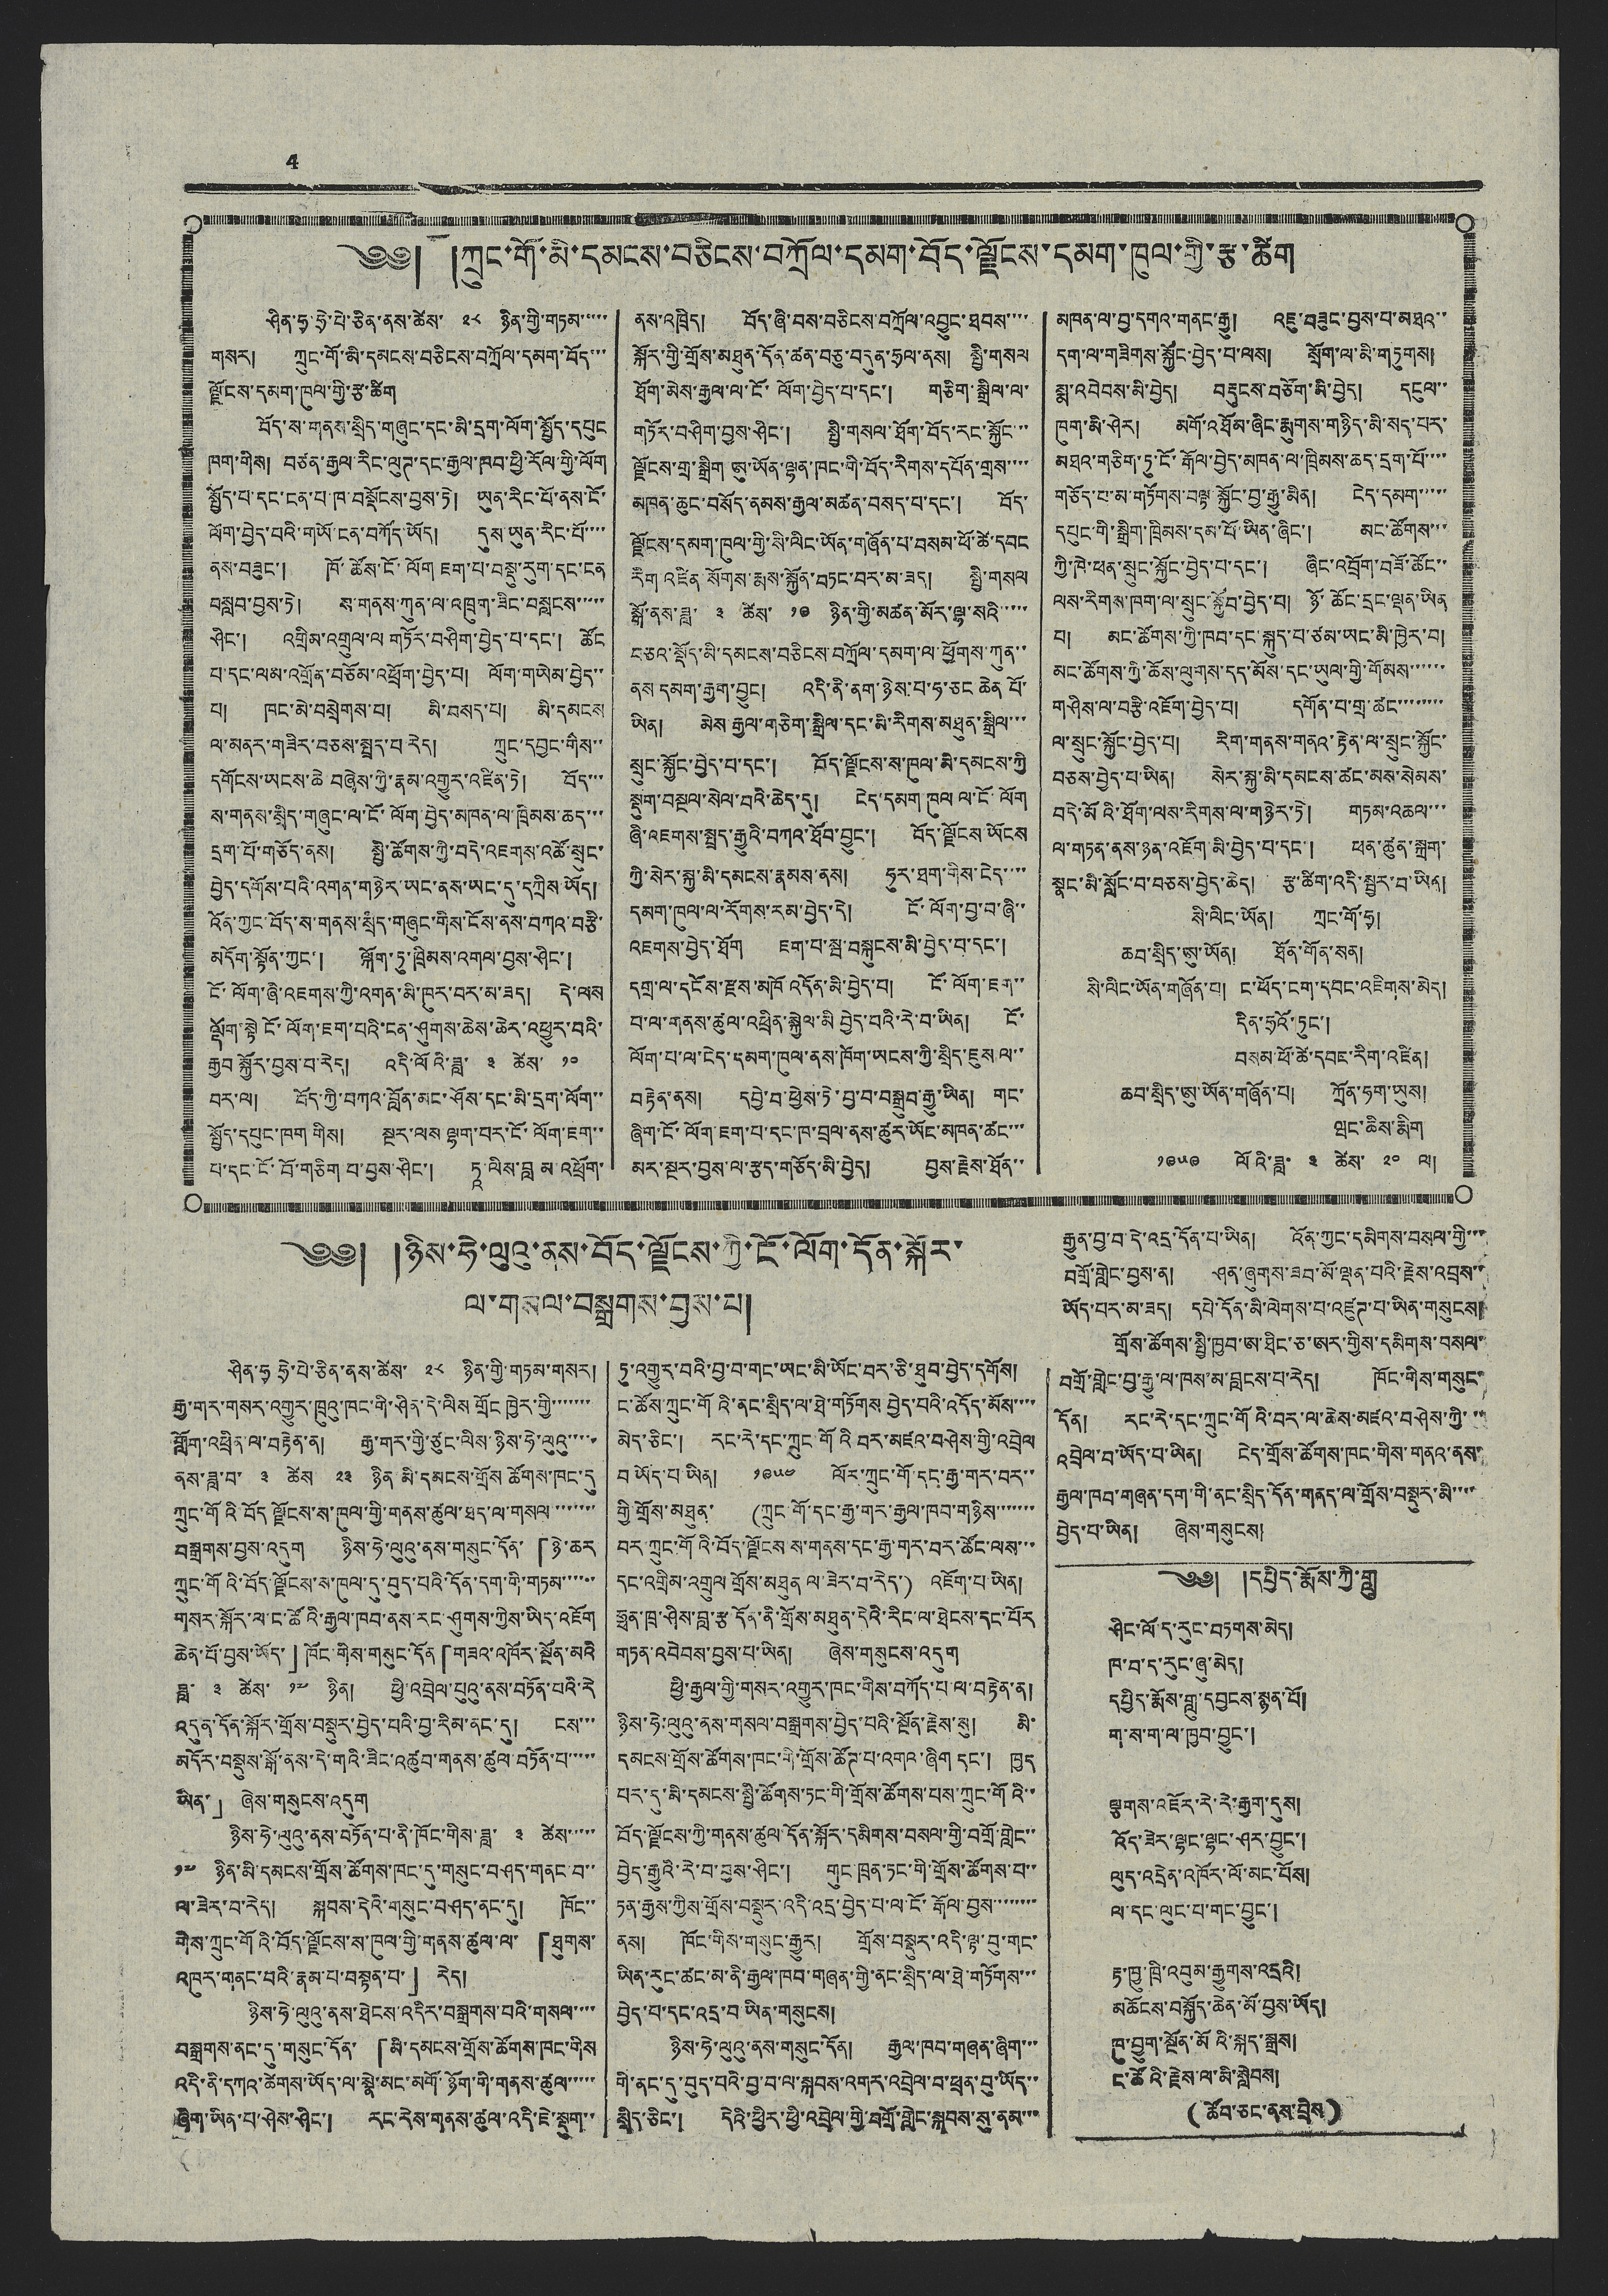4
༄༅། །ཀྲུང་གོ་མི་དམངས་བཅིངས་བཀྲོལ་དམག་བོད་ལྗོངས་དམག་ཁུལ་གྱི་རྩ་ཚིག
ཤིན་ཧྭ་ཧྲེ་པེ་ཅིན་ནས་ཚེས་ ༢༨ ཉིན་གྱི་གཏམ་་་་་
གསར། ཀྲུང་གོ་མི་དམངས་བཅིངས་བཀྲོལ་དམག་བོད་་་
ལྗོངས་དམག་ཁུལ་གྱི་རྩ་ཚིག
བོད་ས་གནས་སྲིད་གཞུང་དང་མི་དྲག་ལོག་སྤྱོད་དཔུང
ཁག་གིས། བཙན་རྒྱལ་རིང་ལུཊ་དང་རྒྱལ་ཁབ་ཕྱི་རོལ་གྱི་ལོག
སྤྱོད་པ་དང་ངན་པ་ཁ་བསྡོངས་བྱས་ཏེ། ཡུན་རིང་པོ་ནས་ངོ་
ལོག་བྱེད་པའི་གཡོ་ངན་བཀོད་ཡོད། དུས་ཡུན་རིང་པོ་་་་
ནས་བཟུང་། ཁོ་ཚོས་ངོ་ལོག ཇག་པ་བསྡུ་རུག་དང་ངན
བསླབ་བྱས་ཏེ། ས་གནས་ཀུན་ལ་འཁྲུག་ཟིང་བསླངས་་་་་
ཤིང་། འགྲིམ་འགྲུལ་ལ གཏོར་བཤིག་བྱེད་པ་དང་། ཚོང
པ་དང་ལམ་འགྲོན་བཅོམ་འཕྲོག་བྱེད་པ། ལོག་གཡེམ་བྱེད་་
པ། ཁང་མེ་བསྲེགས་པ། མི་བསད་པ། མི་དམངས
ལ་མནར་གཟིར་བཅས་སྤྲད་པ་རེད། ཀྲུང་དབྱང་གིས་་
དགོངས་ཡངས་ཆེ བཞེས་ཀྱི་རྣམ་འགྱུར་འཛིན་ཏེ། བོད་་་
ས་གནས་སྲིད་གཞུང་ལ་ངོ་ལོག་བྱེད་མཁན་ལ་ཁྲིམས་ཆད་་་
དྲག་པོ་གཅོད་ནས། སྤྱི་ཚོགས་ཀྱི་བདེ་འཇགས་འཚོ་སྲུང་
བྱེད་དགོས་པའི་འགན་གཉེར་ཡང་ནས་ཡང་དུ་དཀྲིས་ཡོད།
འོན་ཀྱང་བོད་ས་གནས་སྲིད་གཞུང་གིས་ངོས་ནས་བཀའ་བརྩི་
མདོག་སྟོན་ཀྱང་། ལྐོག་ཏུ་ཁྲིམས་འགལ་བྱས་ཤིང་།
ངོ་ལོག་ཞི་འཇགས་ཀྱི་འགན་མི་ཁུར་བར་མ་ཟད། དེ་ལས
ལྡོག་སྟེ ངོ་ལོག་ཇག་པའི་ངན་ཤུགས་ཆེས་ཆེར་འཕྱུར་བའི་
རྒྱབ སྐྱོར་བྱས་བ་རེད། འདི་ལོའི་ཟླ་ ༣ ཚེས་ ༡༠
བར་ལ། བོད་ཀྱི་བཀའ་བློན་མང་ཤོས་དང་མི་དྲག་ལོག་་
སྤྱོད་དཔུང་ཁག གིས། སྔར་ལས ལྷག་པར་ངོ་ལོག་ཇག་་
པ་དང་ངོ་བོ་གཅིག་པ་བྱས་ཤིང་། ཏཱ་ལིས་བླ མ འཕྲོག་
ནས་འཁྲིད། བོད་ཞི་བས་བཅིངས་བཀྲོལ་འབྱུང་ཐབས་་་་
སྐོར་གྱི་གྲོས་མཐུན་དོན་ཚན་བཅུ་བདུན་ཧྲལ་ནས། སྤྱི་གསལ
ཐོག་མེས་རྒྱལ་ལ་ངོ་ལོག་བྱེད་པ་དང་། གཅིག་སྒྲིལ་ལ་
གཏོར་བཤིག་བྱས་ཤིང་། སྤྱི་གསལ་ཐོག་བོད་རང་སྐྱོང་་་
ལྗོངས་གྲ་སྒྲིག ཨུ་ཡོན་ལྷན་ཁང་གི་བོད་རིགས་དཔོན་གྲས་་་་
མཁན་ཆུང་བསོད་ནམས་རྒྱལ་མཚན་བསད་པ་དང་། བོད་
ལྗོངས་དམག་ཁུལ་གྱི་སི་ལིང་ཡོན་གཞོན་པ་བསམ་ཕོ་ཚེ་དབང
རིག་འཛིན་སོགས་རྨས་སྐྱོན་བཏང་བར་མ་ཟད། སྤྱི་གསལ
སྒོ་ནས་ཟླ་ ༣ ཚེས་ ༡༩ ཉིན་གྱི་མཚན་མོར་ལྷ་སའི་་་་་
བཅའ་སྡོད་མི་དམངས་བཅིངས་བཀྲོལ་དམག་ལ་ཕྱོགས་ཀུན་་
ནས་དམག་རྒྱག་བྱུང། འདི་ནི་ནག་ཉེས་པ་ཧ་ཅང ཆེན པོ་
ཡིན། མེས་རྒྱལ་གཅིག་སྒྲིལ་དང་མི་རིགས་མཐུན་སྒྲིལ་་་
སྲུང་སྐྱོང་བྱེད་པ་དང་། བོད་ལྗོངས་ས་ཁུལ་མི་དམངས་ཀྱི
སྡུག་བསྔལ་སེལ་བའི་ཆེད་དུ། ངེད་དམག ཁུལ ལ་ངོ་ལོག
ཞི་འཇགས་སྤྲད་རྒྱུའི་བཀའ་ཐོབ་བྱུང་། བོད་ལྗོངས་ཡོངས
ཀྱི་སེར་སྐྱ་མི་དམངས་རྣམས་ནས། ཧུར་ཐག་གིས་ངེད་་་་
དམག་ཁུལ་ལ་རོགས་རམ་བྱེད་དེ། ངོ་ལོག་བྱ་བ་ཞི་་
འཇགས་བྱེད་ཐོག ཇག་པ་སྦ་བསྐུངས་མི་བྱེད་པ་དང་།
དགྲ་ལ་དངོས་རྫས་མཁོ འདོན་མི་བྱེད་བ། ངོ་ལོག་ཇག་་
བ་ལ་གནས་ཚུལ་འཕྲིན་སྐྱེལ་མི བྱེད་བའི་རེ་བ་ཡིན། ངོ་
ལོག་པ་ལ་ངེད་དམག་ཁུལ་ནས་ཁོག་ཡངས་ཀྱི་སྲིད་ཇུས ལ་་
བརྟེན་ནས། དབྱེ་བ་ཕྱེས་ཏེ་བྱ་བ་བསྒྲུབ་རྒྱུ་ཡིན། གང་
ཞིག་ངོ་ལོག་ཇག་པ་དང་ཁག་བྲལ་ནས་ཚུར་ཡོང་མཁན་ཚང་་་
མར་སྔར་བྱས་ལ་རྩད་གཅོད་མི་བྱེད། བྱས་རྗེས་ཐོན་་
མཁན་ལ་བྱ་དགའ་གནང་རྒྱུ། འཇུ་བཟུང་བྱས་པ་མཐའ་་
དག་ལ་གཟིགས་སྐྱོང་བྱེད་པ་ལས། སྲོག་ལ་མི་གཏུགས།
སྨ་འབེབས་མི་བྱེད། བརྡུངས་བཙོག་མི་བྱེད། དངུལ་་
ཁུག་མི་ཤེར། མགོ་འཐོམ་ཞིང་རྨུགས་གཉིད་མི་སད་པར་
མཐའ་གཅིག་ཏུ་ངོ་རྒོལ་བྱེད་མཁན་ལ་ཁྲིམས་ཆད་དྲག་པོ་་་་
གཅོད་པ་མ་གཏོགས་བལྟ་སྐྱོང་བྱ་རྒྱུ་མིན། ངེད་དམག་་་་་
དཔུང་གི་སྒྲིག་གྲིམས་དམ་པོ་ཡིན་ཞིང་། མང་ཚོགས་་་
ཀྱི་ཁེ་ཕན་སྲུང་སྐྱོང་བྱེད་པ་དང་། ཞིང་འབྲོག་བཟོ་ཚོང་་
ལས་རིགས་ཁག་ལ་སྲུང་སྐྱོབ་བྱེད་པ། ཉོ་ཚོང་དྲང་ལྡན་ཡིན
པ། མང་ཚོགས་ཀྱི་ཁབ་དང་སྐུད་པ་ཙམ་ཡང་མི་ཁྱེར་བ།
མང་ཚོགས་ཀྱི་ཆོས་ལུགས་དད་མོས་དང་ཡུལ་གྱི་གོམས་་་་་་
གཤིས་ལ་བརྩི་འཇོག་བྱེད་པ། དགོན་པ་གྲ་ཚང་་་་་་་་
ལ་སྲུང་སྐྱོང་བྱེད་པ། རིག་གནས་གནའ་རྟེན་ལ་སྲུང་སྐྱོང་
བཅས་བྱེད་པ་ཡིན། སེར་སྐྱ་མི་དམངས་ཚང་མས་སེམས་
བདེ་མོའི་ཐོག་ལས་རིགས་ལ་གཉེར་ཏེ། གཏམ་འཆལ་་་
ལ་གཏན་ནས་ཉན་འཇོག་མི་བྱེད་པ་དང་། ཕན་ཚུན་སྐྲག་
སྣང་མི་སློང་བ་བཅས་བྱེད་ཆེད། རྩ་ཚིག་འདི་སྦྱར་བ་ཡིན།
སི་ལིང་ཡོན། ཀྲང་གོ་ཧྭ།
ཆབ་སྲིད་ཨུ་ཡོན། ཐོན་གོན་སན།
སི་ལིང་ཡོན་གཞོན་པ། ང་ཕོད་ངག་དབང་འཇིགས་མེད།
དིན་ཧྲའོ་ཏུང་།
བསམ་ཕོ་ཚེ་དབང་རིག་འཛིན།
ཆབ་སྲིད་ཨུ་ཡོན་གཞོན་པ། ཀྲོན་ཧག་ཡུས།
ཝང་ཆིས་རྨིག
༡༩༥༩ ལོའི་ཟླ་ ༣ ཚེས་ ༢༠ ལ།
༄༅། །ཉིས་ཧེ་ལུའུ་ནས་བོད་ལྗོངས་ཀྱི་ངོ་ལོག་དོན་སྐོར་
ལ་གསལ་བསྒྲགས་བྱས་པ།
ཤིན་ཧྭ ཧྲེ་པེ་ཅིན་ནས་ཚེས་ ༢༨ ཉིན་གྱི་གཏམ་གསར།
རྒྱ་གར་གསར་འགྱུར་ཁྲུའུ་ཁང་གི་ཤིན་དེ་ལིས གྲོང ཁྱེར་གྱི་་་་་་་
གློག་འཕྲིན་ལ་བརྟེན་ན། རྒྱ་གར་གྱི་ཙུང་ལིས་ཉིས་ཧེ་ལུའུ་་་་་
ནས་ཟླ་བ་ ༣ ཚེས ༢༣ ཉིན མི་དམངས་གྲོས ཚོགས་ཁང་དུ
ཀྲུང་གོའི་བོད ལྗོངས་ས་ཁུལ་གྱི་གནས་ཚུལ་ཐད་ལ་གསལ་་་་་་་
བསྒྲགས་བྱས་འདུག ཉིས་ཧེ་ལུའུ་ནས་གསུང་དོན་ 「ཉེ་ཆར
ཀྲུང་གོའི་བོད་ལྗོངས་ས་ཁུལ་དུ་བུད་པའི་དོན་དག་གི་གཏམ་་་་་་
གསར་སྐོར་ལ་ང་ཚོའི་རྒྱལ་ཁབ་ནས་རང་ཤུགས་ཀྱིས་ཡིད་འཇོག
ཆེན་པོ་བྱས་ཡོད་」ཁོང་གིས་གསུང་དོན「གཟའ་འཁོར་སྔོན་མའི
ཟླ་ ༣ ཚེས་ ༡༧ ཉིན། ཕྱི་འབྲེལ་པུའུ་ནས་བཏོན་པའི་རེ
འདུན་དོན་སྐོར་གྲོས་བསྡུར་བྱེད་པའི་བྱ་རིམ་ནང་དུ། ངས་་་
མདོར་བསྡུས་སྒོ་ནས་དེ་གའི་ཟིང་འཚུབ་གནས་ཚུལ་བཏོན་པ་་་་་
ཡིན་」 ཞེས་གསུངས་འདུག
ཉིས་ཧེ་ལུའུ་ནས་བཏོན་པ་ནི་ཁོང་གིས་ཟླ་ ༣ ཚེས་་་་་
༡༧ ཉིན་མི་དམངས་གྲོས་ཚོགས་ཁང་དུ་གསུང་བཤད་གནང་བ་་
ལ་ཟེར་བ་རེད། སྐབས་དེའི་གསུང་བཤད་ནང་དུ། ཁོང་་
གིས་ཀྲུང་གོའི་བོད་ལྗོངས་ས་ཁུལ་གྱི་གནས་ཚུལ་ལ་ 「ཐུགས་
འཁུར་གནང་བའི་རྣམ་པ་བསྟན་པ་」 རེད།
ཉིས་ཧེ་ལུའུ་ནས་ཐེངས་འདིར་བསྒྲགས་པའི་གསལ་་་་
བསྒྲགས་ནང་དུ་གསུང་དོན་ 「མི་དམངས་གྲོས་ཚོགས་ཁང་གིས
འདི་ནི་དཀའ་ཚེགས་ཡོད་ལ་སྣེ་མང་མགོ་ཉོག་གི་གནས་ཚུལ་་་་་
ཞིག་ཡིན་པ་ཤེས་ཤིང་། རང་རེས་གནས་ཚུལ་འདི་ཇེ་སྡུག་་
ཏུ་འགྱུར་བའི་བྱ་བ་གང་ཡང་མི་ཡོང་བར་ཅི་ཐུབ་བྱེད་དགོས།
ང་ཚོས་ཀྲུང་གོའི་ནང་སྲིད་ལ་ཐེ་གཏོགས བྱེད་པའི་འདོད་མོས་་་་
མེད་ཅིང་། རང་རེ་དང་ཀྲུང་གོའི བར་མཛའ་བཤེས་གྱི་འབྲེལ
བ ཡོད་པ་ཡིན། ༡༩༥༤ ལོར་ཀྲུང་གོ་དང་རྒྱ་གར་བར་་
གྱི་གྲོས་མཐུན་ (ཀྲུང་གོ་དང་རྒྱ་གར་རྒྱལ་ཁབ་གཉིས་་་་་་་
བར་ཀྲུང་གོའི་བོད་ལྗོངས་ས་གནས་དང་རྒྱ་གར་བར་ཚོང་ལས་་་
དང་འགྲིམ་འགྲུལ གྲོས་མཐུན ལ་ཟེར་བ་རེད་) འཇོག་པ་ཡིན།
ཧྥན་ཁྲ་ཤིས་བླ་རྩ་དོན་ནི་གྲོས་མཐུན་དེའི་རིང་ལ་ཐེངས་དང་པོར
གཏན་འབེབས་བྱས་པ་ཡིན། ཞེས་གསུངས་འདུག
ཕྱི་རྒྱལ་གྱི་གསར་འགྱུར་ཁང་གིས་བཀོད་པ་ལ་བརྟེན་ན།
ཉིས་ཧེ་ལུའུ་ནས་གསལ་བསྒྲགས་བྱེད་པའི་སྔོན་རྗེས་སུ། མི་
དམངས་གྲོས་ཚོགས་ཁང་གི་གྲོས་ཚོཊ་པ་འགའ་ཞིག དང་། ཁྱད
པར་དུ་མི་དམངས་སྤྱི་ཚོགས་ཏང་གི་གྲོས་ཚོགས་པས་ཀྲུང་གོའི་་
བོད་ལྗོངས་ཀྱི་གནས་ཚུལ་དོན་སྐོར་དམིགས་བསལ་གྱི་བགྲོ་གླེང་་
བྱེད་རྒྱུའི་རེ་བ་བྱས་ཤིང་། གུང་ཁྲན་ཏང་གི་གྲོས་ཚོགས་པ་་
ཏན་རྒྱས་ཀྱིས་གྲོས་བསྡུར་འདི་འདྲ་བྱེད་པ་ལ་ངོ་རྒོལ་བྱས་་་་་་་་
ནས། ཁོང་གིས་གསུང་རྒྱུར། གྲོས་བསྡུར་འདི་ལྟ་བུ་གང་
ཡིན་རུང་ཚང་མ་ནི་རྒྱལ་ཁབ་གཞན་གྱི་ནང་སྲིད་ལ་ཐེ་གཏོགས་་་
བྱེད་པ་དང་འདྲ་བ་ཡིན་གསུངས།
ཉིས་ཧེ་ལུའུ་ནས་གསུང་དོན། རྒྱལ་ཁབ་གཞན་ཞིག་་་
གི་ནང་དུ་བུད་པའི་བྱ་བ་ལ་སྐབས་འགར་འབྲེལ་བ་ཕྲན་བུ་ཡོད་་
སྲིད་ཅིང་། དེའི་ཕྱིར་ཕྱི་འབྲེལ་གྱི་བགྲོ་གླེང་སྐབས་སུ་ནམ་་་
རྒྱུན་བྱ་བ་དེ་འདྲ་དོན་པ་ཡིན། འོན་ཀྱང་དམིགས་བསལ་གྱི་་་
བགྲོ་གླེང་བྱས་ན། ཤན་ཞུགས་ཟབ་མོ་ལྡན་པའི་རྗེས་འབྲས་་
ཡོད་པར་མ་ཟད། དཔེ་དོན་མི་ལེགས་པ་འཛུཊ་པ་ཡིན་གསུངས།
གྲོས་ཚོགས་སྤྱི་ཁྱབ་ཨ་ཐིང་ཅ་ཨར་གྱིས་དམིགས་བསལ་
བགྲོ་གླེང་བྱ་རྒྱུ་ལ་ཁས་མ་བླངས་པ་རེད། ཁོང་གིས་གསུང་
དོན། རང་རེ་དང་ཀྲུང་གོའི་བར་ལ་ཆེས་མཛའ་བཤེས་ཀྱི་་་
འབྲེལ་བ་ཡོད་པ་ཡིན། ངེད་གྲོས་ཚོགས་ཁང་གིས་གནའ་ནས་
རྒྱལ་ཁབ་གཞན་དག་གི་ནང་སྲིད་དོན་གནད་ལ་གྲོས་བསྡུར་མི་་་་
བྱེད་པ་ཡིན། ཞེས་གསུངས།
༄༅། །དཔྱིད་རྨོས་ཀྱི་གླུ
ཤིང་ལོ་ད་རུང་བཏགས་མེད།
ཁ་བ་ད་རུང་ཞུ་མེད།
དཔྱིད་རྨོས་གླུ་དབྱངས་སྙན་པོ།
ག་ས་ག་ལ་ཁྱབ་བྱུང་།
ལྕགས་འཇོར་རེ་རེ་རྒྱག་དུས།
འོད་ཟེར་ལྷང་ལྷང་ཤར་བྱུང་།
ལུད་འདྲེན་འཁོར་ལོ་མང་པོས།
ལ་དང་ལུང་པ་གང་བྱུང་།
རྟ་ཁྱུ་ཁྲི་འབུམ་རྒྱུགས་འདྲའི།
མཆོངས་བསྐྱོད་ཆེན་མོ་བྱས་ཡོད།
ཁུ་བྱུག་སྔོན་མོའི་སྐད་སྒྲས།
ང་ཚོའི་རྗེས་ལ་མི་སླེབས།
(ཚོབ་ཅང་ནས་བྲིས)
